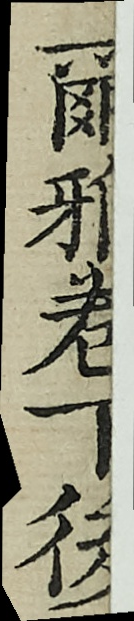爾雅卷下後
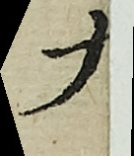六
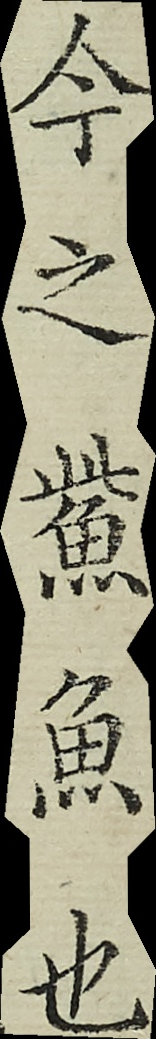今之鮆魚也
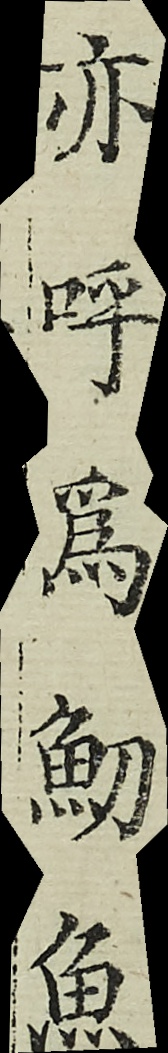亦呼為魛魚
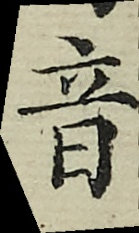音
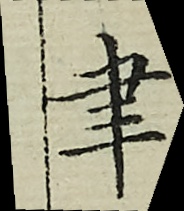聿
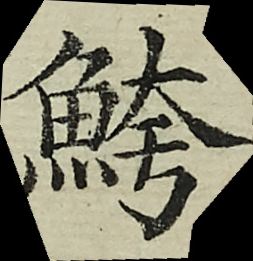鮬
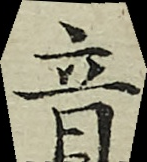音
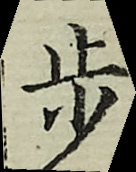步
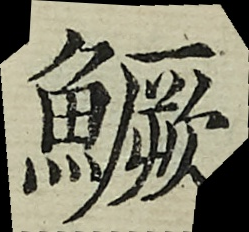鱖
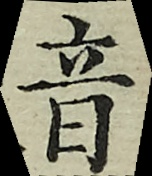音
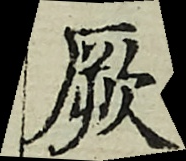厥
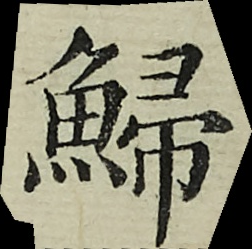鯞
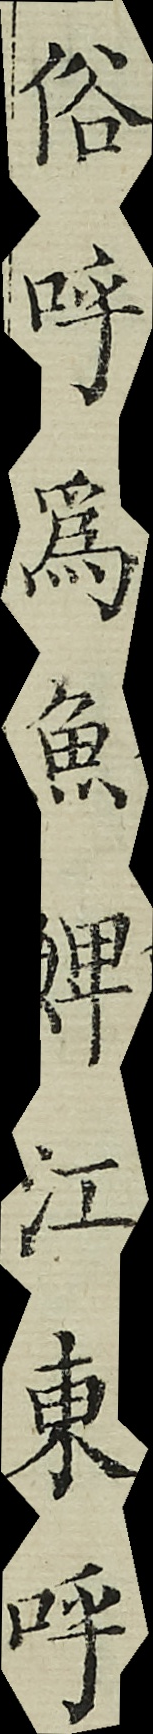俗呼為魚婢江東呼
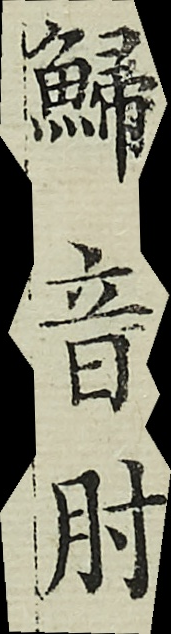鯞音肘
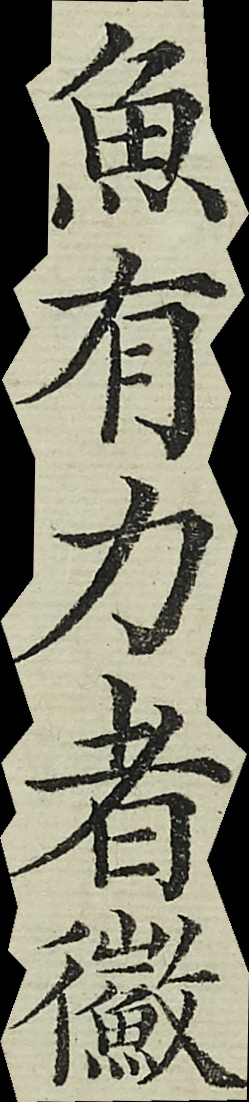魚有力者鰴
